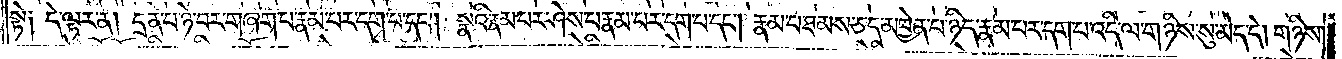སྟེ༑ དེ་ལྟར་ན། དྲན་པ་ཉེ་བར་གཞག་པ་རྣམ་པར་དག་པ་དང༌། སྣའི་རྣམ་པར་ཤེས་པ་རྣམ་པར་དག་པ་དང༌། རྣམ་པ་ཐམས་ཅད་མཁྱེན་པ་ཉིད་རྣམ་པར་དག་པ་འདི་ལ་གཉིས་སུ་མེད་དེ། གཉིས་
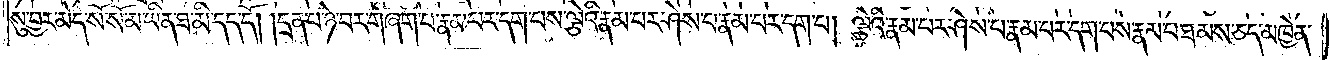སུ་བྱར་མེད་སོ་སོ་མ་ཡིན་ཐ་མི་དད་དོ། །དྲན་པ་ཉེ་བར་གཞག་པ་རྣམ་པར་དག་པས་ལྕེའི་རྣམ་པར་ཤེས་པ་རྣམ་པར་དག་པ། ལྕེའི་རྣམ་པར་ཤེས་པ་རྣམ་པར་དག་པས་རྣམ་པ་ཐམས་ཅད་མཁྱེན་
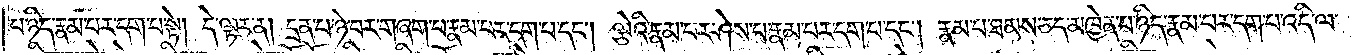པ་ཉིད་རྣམ་པར་དག་པ་སྟེ། དེ་ལྟར་ན། དྲན་པ་ཉེ་བར་བཞག་པ་རྣམ་པར་དག་པ་དང༌། ལྕེའི་རྣམ་པར་ཤེས་པ་རྣམ་པར་དག་པ་དང༌། རྣམ་པ་ཐམས་ཅད་མཁྱེན་པ་ཉིད་རྣམ་པར་དག་པ་འདི་ལ་
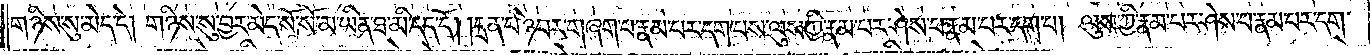གཉིས་སུ་མེད་དེ། གཉིས་སུ་བྱར་མེད་སོ་སོ་མ་ཡིན་ཐ་མི་དད་དོ། །དྲན་པ་ཉེ་བར་གཞག་པ་རྣམ་པར་དག་པས་ལུས་ཀྱི་རྣམ་པར་ཤེས་པ་རྣམ་པར་དག་པ། ལུས་ཀྱི་རྣམ་པར་ཤེས་པ་རྣམ་པར་དག་
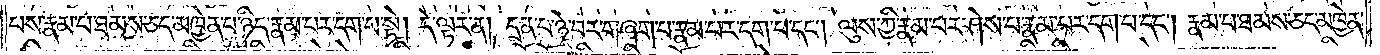པས་རྣམ་པ་ཐམས་ཅད་མཁྱེན་པ་ཉིད་རྣམ་པར་དག་པ་སྟེ། དེ་ལྟར་ན། དྲན་པ་ཉེ་བར་གཞག་པ་རྣམ་པར་དག་པ་དང༌། ལུས་ཀྱི་རྣམ་པར་ཤེས་པ་རྣམ་པར་དག་པ་དང༌། རྣམ་པ་ཐམས་ཅད་མཁྱེན་
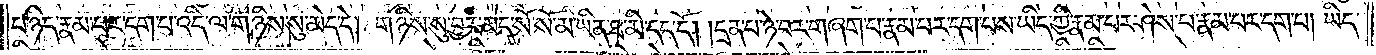པ་ཉིད་རྣམ་པར་དག་པ་འདི་ལ་གཉིས་སུ་མེད་དེ། གཉིས་སུ་བྱར་མེད་སོ་སོ་མ་ཡིན་ཐ་མི་དད་དོ། །དྲན་པ་ཉེ་བར་གཞག་པ་རྣམ་པར་དག་པས་ཡིད་ཀྱི་རྣམ་པར་ཤེས་པ་རྣམ་པར་དག་པ། ཡིད་
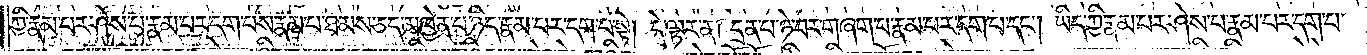ཀྱི་རྣམ་པར་ཤེས་པ་རྣམ་པར་དག་པས་རྣམ་པ་ཐམས་ཅད་མཁྱེན་པ་ཉིད་རྣམ་པར་དག་པ་སྟེ། དེ་ལྟར་ན། དྲན་པ་ཉེ་བར་གཞག་པ་རྣམ་པར་དག་པ་དང༌། ཡིད་ཀྱི་རྣམ་པར་ཤེས་པ་རྣམ་པར་དག་པ་
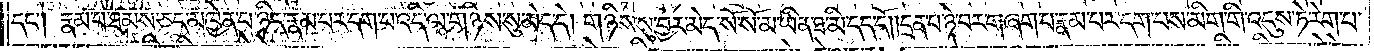དང༌། རྣམ་པ་ཐམས་ཅད་མཁྱེན་པ་ཉིད་རྣམ་པར་དག་པ་འདི་ལ་གཉིས་སུ་མེད་དེ། གཉིས་སུ་བྱར་མེད་སོ་སོ་མ་ཡིན་ཐ་མི་དད་དོ། །དྲན་པ་ཉེ་བར་གཞག་པ་རྣམ་པར་དག་པས་མིག་གི་འདུས་ཏེ་རེག་པ་
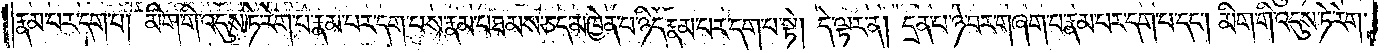རྣམ་པར་དག་པ། མིག་གི་འདུས་ཏེ་རེག་པ་རྣམ་པར་དག་པས་རྣམ་པ་ཐམས་ཅད་མཁྱེན་པ་ཉིད་རྣམ་པར་དག་པ་སྟེ། དེ་ལྟར་ན། དྲན་པ་ཉེ་བར་གཞག་པ་རྣམ་པར་དག་པ་དང༌། མིག་གི་འདུས་ཏེ་རེག་
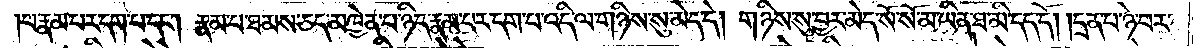པ་རྣམ་པར་དག་པ་དང༌། རྣམ་པ་ཐམས་ཅད་མཁྱེན་པ་ཉིད་རྣམ་པར་དག་པ་འདི་ལ་གཉིས་སུ་མེད་དེ། གཉིས་སུ་བྱར་མེད་སོ་སོ་མ་ཡིན་ཐ་མི་དད་དོ། །དྲན་པ་ཉེ་བར་
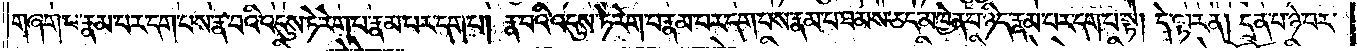གཞག་པ་རྣམ་པར་དག་པས་རྣ་བའི་འདུས་ཏེ་རེག་པ་རྣམ་པར་དག་པ། རྣ་བའི་འདུས་ཏེ་རེག་པ་རྣམ་པར་དག་པས་རྣམ་པ་ཐམས་ཅད་མཁྱེན་པ་ཉིད་རྣམ་པར་དག་པ་སྟེ། དེ་ལྟར་ན། དྲན་པ་ཉེ་བར་
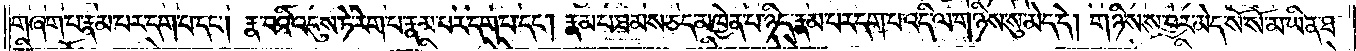གཞག་པ་རྣམ་པར་དག་པ་དང༌། རྣ་བའི་འདུས་ཏེ་རེག་པ་རྣམ་པར་དག་པ་དང༌། རྣམ་པ་ཐམས་ཅད་མཁྱེན་པ་ཉིད་རྣམ་པར་དག་པ་འདི་ལ་གཉིས་སུ་མེད་དེ། གཉིས་སུ་བྱར་མེད་སོ་སོ་མ་ཡིན་ཐ་
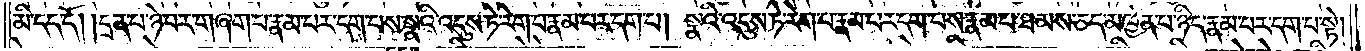མི་དད་དོ། །དྲན་པ་ཉེ་བར་གཞག་པ་རྣམ་པར་དག་པས་སྣའི་འདུས་ཏེ་རེག་པ་རྣམ་པར་དག་པ། སྣའི་འདུས་ཏེ་རེག་པ་རྣམ་པར་དག་པས་རྣམ་པ་ཐམས་ཅད་མཁྱེན་པ་ཉིད་རྣམ་པར་དག་པ་སྟེ།
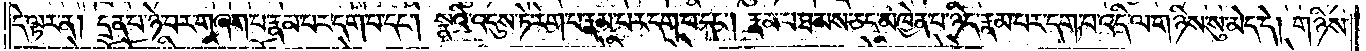དེ་ལྟར་ན། དྲན་པ་ཉེ་བར་གཞག་པ་རྣམ་པར་དག་པ་དང༌། སྣའི་འདུས་ཏེ་རེག་པ་རྣམ་པར་དག་པ་དང༌། རྣམ་པ་ཐམས་ཅད་མཁྱེན་པ་ཉིད་རྣམ་པར་དག་པ་འདི་ལ་གཉིས་སུ་མེད་དེ། གཉིས་
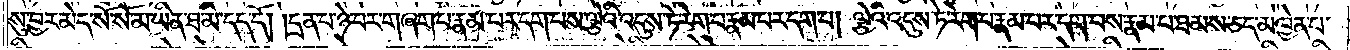སུ་བྱར་མེད་སོ་སོ་མ་ཡིན་ཐ་མི་དད་དོ། །དྲན་པ་ཉེ་བར་གཞག་པ་རྣམ་པར་དག་པས་ལྕེའི་འདུས་ཏེ་རེག་པ་རྣམ་པར་དག་པ། ལྕེའི་འདུས་ཏེ་རེག་པ་རྣམ་པར་དག་པས་རྣམ་པ་ཐམས་ཅད་མཁྱེན་པ་
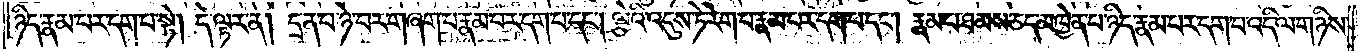ཉིད་རྣམ་པར་དག་པ་སྟེ། དེ་ལྟར་ན། དྲན་པ་ཉེ་བར་གཞག་པ་རྣམ་པར་དག་པ་དང༌། ལྕེའི་འདུས་ཏེ་རེག་པ་རྣམ་པར་དག་པ་དང༌། རྣམ་པ་ཐམས་ཅད་མཁྱེན་པ་ཉིད་རྣམ་པར་དག་པ་འདི་ལ་གཉིས་
